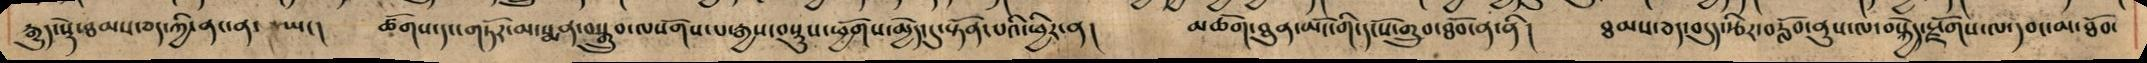རྒྱུད་སྡེ་ཐམས་ཅད་ཀྱི་ནང་ན་ ཡང། ཚོགས་དང་གཏོར་མ་སྨན་བསྒྲུབ་ལསོགས་པ་རྒྱས་བསྡུས་ཕྱོགས་མྱེད་དུ་སྟོན་པའི་ཕྱིར་ན། མཆོག་མཐཱུན་མོང་གི་དངོས་གྲུབ་ཐོབ་ན་ནི། ཐམས་ཅད་དུ་བདུས་རྩིར་བརློབ་ནུས་ལ་བསྐྱེད་སྫོགས་ལ་དབང་མ་ཐོབ་
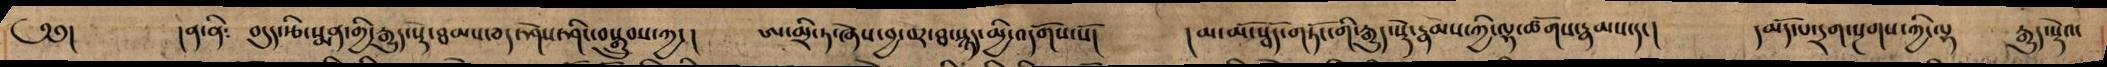༄༅། །ན་ནི༴ བདུད་རྩི་སྨན་གྱི་རྒྱུད་སྡེ་ཐམས་ཅད་ཤེས་ཤིང་བསྒྲུབས་ཀྱང། ཨ་མྲི་ཏ་ཞེས་བྱ་བར་ཐ་སྙད་མྱི་དགོས་སོ། །མ་མོ་སྦོད་གཏོང་གི་རྒྱུད་སྡེ་རྣམས་ཀྱི་ལྷ་ཚོགས་རྣམས་དང། དམོད་པ་དྲག་སྔགས་ཀྱི་ལྷ རྒྱུད་སྡེའ་
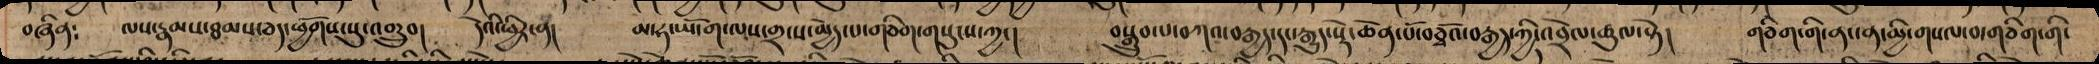བཞིན༴ ལས་རྣམས་ཐམས་ཅད་ཕྱོགས་སུ་འགྲུབ། དེའི་ཕྱིར་ན། མ་ཧ་ཡོ་ག་ལས་གྲངས་མྱེད་པ་གཅིག་གསུངས་ཀྱང། བསྒྲུབ་པ་བཀའ་བརྒྱད་དང་རྒྱུད་སྡེ་ཆེན་པོ་བཅྭོའ་བརྒྱད་ཀྱི་འབྲེལ་ཚུལ་སྟེ། གཅིག་གི་ནང་ན་མྱི་གསལ་བ་གཅིག་གི་
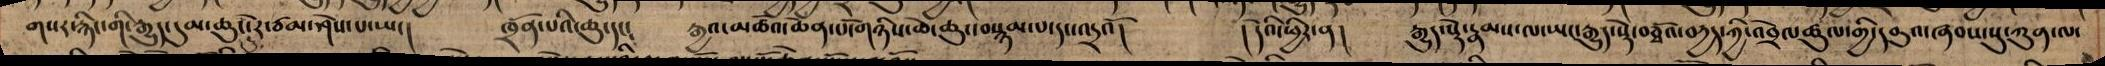གསར་རྙིང་གི་རྒྱུད་དུམ་ཆུང་རེ་ཙམ་ཤེས་པ་ཡང། ཁྲོན་པའི་ཆུ་དང༴ རྒྱའ་མཚོའ་ཆེན་པོ་གཉིས་ཆེ་ཆུང་བསྙམ་པ་དང་འདྲའོ། །དེའི་ཕྱིར་ན། རྒྱུད་སྡེ་རྣམས་ལ་ཡང་རྒྱུད་སྡེ་བཅྭོའ་བརྱད་ཀྱི་འབྲེལ་ཚུལ་གྱི་དབུའ་ཞབས་སུ་ཀུན་ལ་
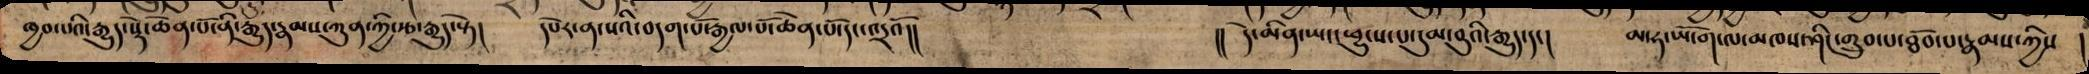ཁྱབ་པའི་རྒྱུད་སྡེ་ཆེན་པོ་ནི་རྒྱུད་རྣམས་ཀུན་ཀྱི་རྩ་རྒྱུད་སྟེ། དཔེར་ན་སའི་བདག་པོ་རྒྱལ་པོ་ཆེན་པོ་དང་འདྲའོ།། །། དེ་མིན་ཡང་ཕྱུངས་པ་དུམ་བུའི་རྒྱུད་དང། མ་ཧ་ཡོ་ག་ལ་མཁས་ཤིང་གྲུབ་པ་ཐོབ་པ་རྣམས་ཀྱིས །
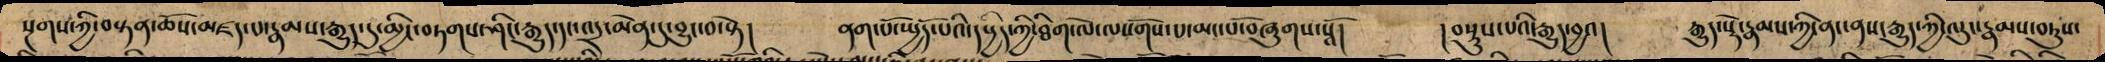སྔགས་ཀྱི་བསྟན་ཆོས་མཛད་པ་རྣམས་རྒྱུད་དུ་མྱིང་བཏགས་ཤིང་རྒྱུད་དང་འདྲ་མེན་དུ་བྱུང་བ་སྟེ། ནག་པོ་སྤྱོད་པའི་དཔྱིད་ཀྱི་ཐིག་ལེ་ལསོགས་པ་མང་པོ་བཞུགས་སཱོ། །བསྡུས་པའི་རྒྱུད་བྱའ། རྒྱུད་སྡེ་རྣམས་ཀྱི་ནང་ནས་རྒྱུད་ཀྱི་ལུང་རྣམས་བཏུས་
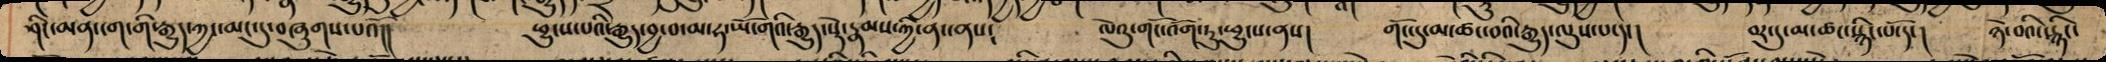ཤིང་མན་ངག་གི་རྒྱུད་ཀྱང་མང་དུ་བཞུགས་པའོ།། ཕྱུངས་པའི་རྒྱུད་བྱ་བ་མ་ཧ་ཡོ་གའི་རྒྱུད་སྡེ་རྣམས་ཀྱི་ནང་ནས། ལེའུ་གོང་འོག་ཏུ་ཕྱུངས་ནས། གོང་དུ་མ་ཚང་བའི་རྒྱུད་ལུས་པ་དང། བར་དུ་མ་ཚང་སྙིང་པོ་དང། ཉེ་བའི་སྙིང་
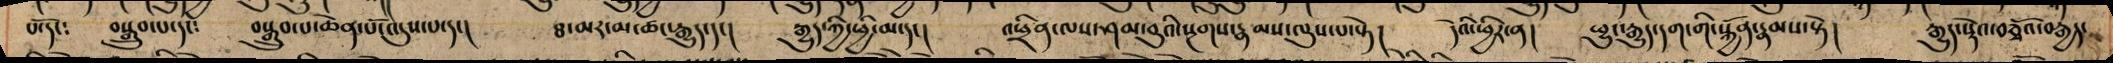པོ་དང༴ བསྒྲུབ་པ་དང༴ བསྒྲུབ་པ་ཆེན་པོ་འདུས་པ་དང། ཐ་མར་མ་ཚང་རྒྱུད་དང། རྒྱུད་ཀྱི་ཕྱི་མ་དང།  འཕྲིན་ལས་ཤམ་བུའི་སྔགས་རྣམས་ལུས་པ་སྟེ། དེའི་ཕྱིར་ན། ཕྱུང་རྒྱུད་དག་གི་སྐྱོན་རྣམས་སྟེ། རྒྱུད་སྡེའ་བཅྭོའ་བརྒྱད་
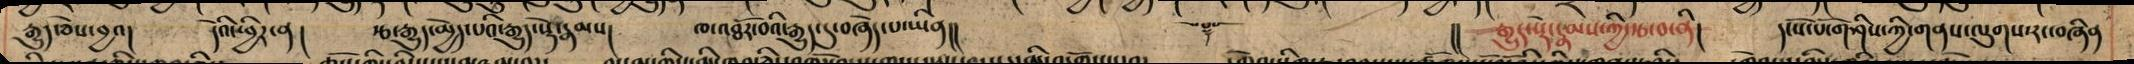རྒྱུད་ཅེས་བྱའ། དེའི་ཕྱིར་ན། རྩ་རྒྱུད་མྱེད་པའི་རྒྱུད་སྡེ་རྣམས། ཁ་འཐོར་བའི་རྒྱུད་དུ་བཞེད་པ་ཡིན།། ༒   །། རྒྱུད་སྡེ་རྣམས་ཀྱི་རྩ་བ་ནི། དངོས་པོ་གཤིས་ཀྱི་གནས་ལུགས་རང་བཞིན
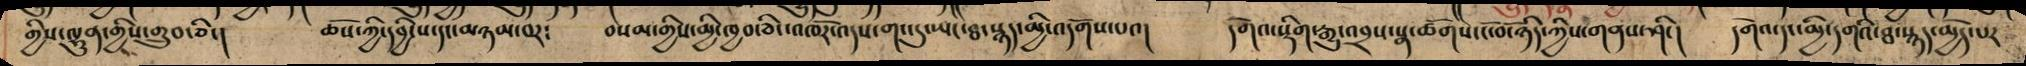གྱིས་ལྷུན་གྱིས་གྲུབ་ཅིང། ཆོས་ཀྱི་དབྱིངས་དང་མཉམ་བར༴ བསམ་གྱིས་མྱི་ཁྱབ་ཅིང་འཁོར་འདས་གང་དུ་ཡང་ཐ་སྙད་མྱི་འདོགས་པའ། དགེའ་སྡིག་རྒྱུ་འབྲས་སྣ་ཚོགས་ངོ་བོ་ཉིད་ཀྱིས་གནས་ཤིང། དགེའ་དང་མྱི་དགའི་ཐ་སྙད་མྱེད་པར
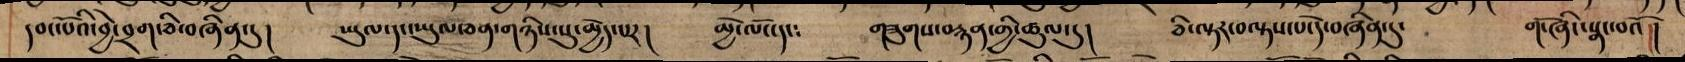དབང་པོའི་བྱེ་བྲག་ཅི་བཞིན་དུ། ཡུལ་དང་ཡུལ་ཅན་གཉིས་སུ་མྱེད་པར། མྱེ་ལོང་དང༴ གཟུགས་བརྙན་གྱི་ཚུལ་དུ། ཅི་ལྟར་བལྟས་པ་དེ་བཞིན་དུ་ གོ་ཞིང་སྣང་བའོ།།
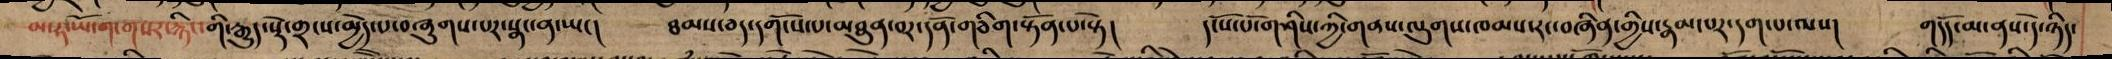མ་ཧ་ཡོ་ག་གསར་རྙིང་གི་རྒྱུད་སྡེ་གྲངས་མྱེད་པ་བཞུགས་པར་སྣང་ན་ཡང། ཐམས་ཅད་དགོངས་པ་མཐུན་བར་དོན་གཅིག་སྟོན་པ་སྟེ། དངོས་པོ་གཤིས་ཀྱི་གནས་ལུགས་ཁམས་རང་བཞིན་གྱིས་རྣམ་པར་དག་པ་ལས། གདོད་མ་ནས་དེ་ཉིད་
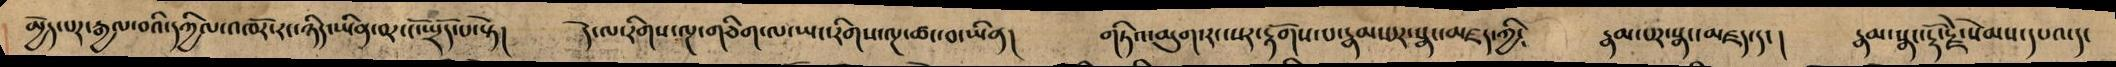མྱེད་པར་རྒྱལ་བའི་དཀྱིལ་འཁོར་རང་ཉིད་ཡིན་བར་ངོ་སྤྲོད་པ་སྟེ། དེ་ལ་རིགས་ལྔ་གཅིག་ལ་ཡང་རིགས་ལྔ་ཚདྷ་བ་ཡིན། གཏིའ་མུག་རང་སར་རྟོགས་པ་རྣམས་ར་སྣང་མཛད་ཀྱི༴ རྣམ་པར་སྣང་མཛད་དང། རྣམ་སྣང་རྡོ་རྗེ་སེམས་དཔའ་དང
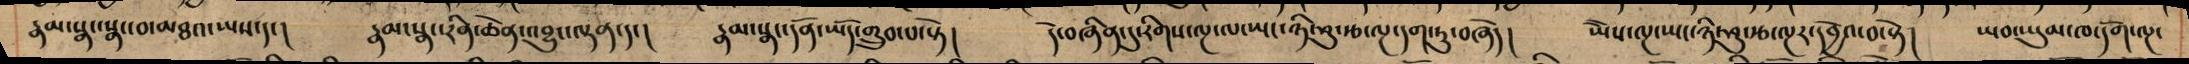རྣམ་སྣང་སྣང་བ་མཐའ་ཡས་དང། རྣམ་སྣང་རིན་ཆེན་འབྱུང་ལྡན་དང། རྣམ་སྣང་དོན་ཡོད་གྲུབ་པ་སྟེ། དེ་བཞིན་དུ་རིགས་ལྔ་ལ་ཡང་ཉི་ཤུ་རྩ་ལྔ་དག་ཏུ་བཞེད། ཡཻས་ལྔ་ཡང་ཉི་ཤུ་རྩ་ལྔར་དབྱེའ་བ་སྟེ། ཡབ་ཡུམ་ཁ་དོག་ལྔ་
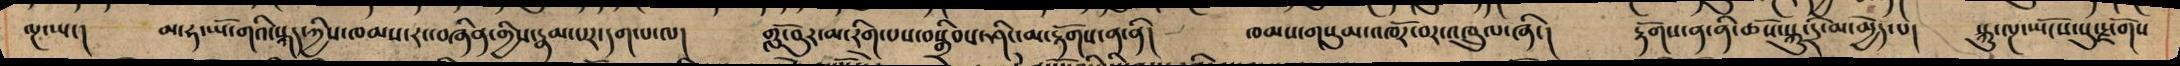ལྔ་ཡང། མ་ཧ་ཡོ་གའི་སྐད་ཀྱིས་ཁམས་རང་བཞིན་གྱིས་རྣམ་པར་དག་པ་ལ། གློ་བུར་མ་རིག་བསྒྲིབས་ཤིང་མ་རྟོགས་ན་ནི། ཁམས་གསུམ་འཁོར་བར་འཁྲུལ་ཞིང། རྟོགས་ན་ནི་ཆོས་སྐུ་དྲི་མ་མྱེད་པ། སྐུ་ལྔ་ཡོངས་སུ་སྫོགས
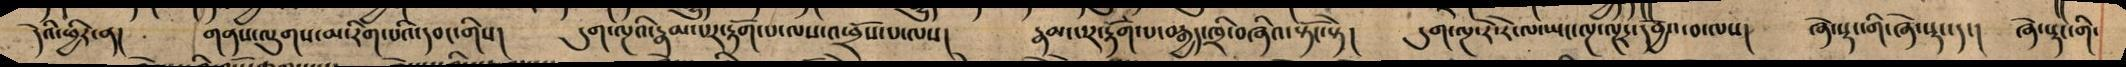དེའི་ཕྱིར་ན། གནས་ལུགས་མ་རིག་པའི་དབང་གིས། དུག་ལྔའི་རྣམ་པར་རྟོག་པ་ལས་འཕྲོས་པ་ལས། རྣམ་པར་རྟོག་པ་བརྒྱད་ཁྲི་བཞིའ་སྟོང་སྟེ། དུག་ལྔ་རེ་རེ་ལ་ཡང་ལྔ་ལྔར་དབྱེའ་བ་ལས། ཞེ་སྡང་གི་ཞེ་སྡང་དང། ཞེ་སྡང་གི་
